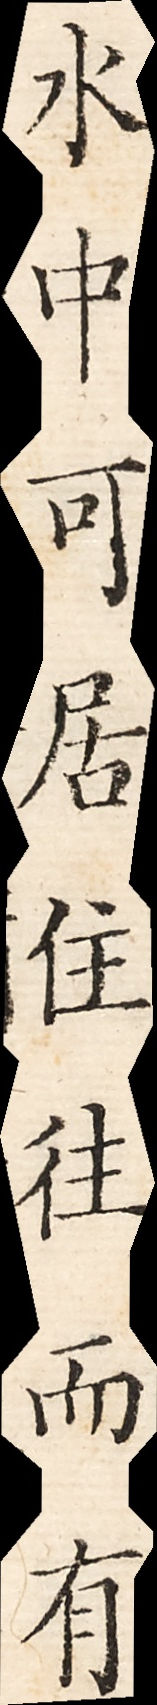水中可居往往而有
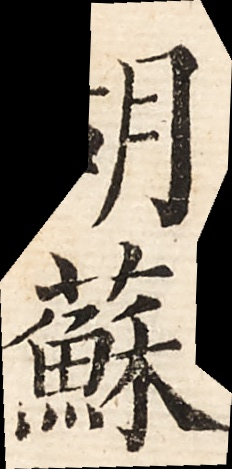胡蘇
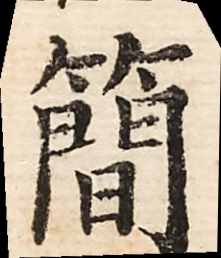簡
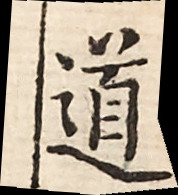道
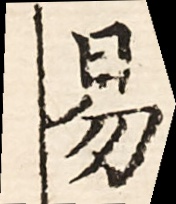易
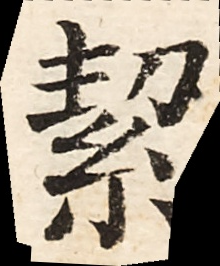絜
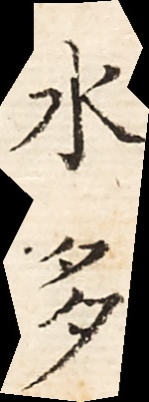約絜
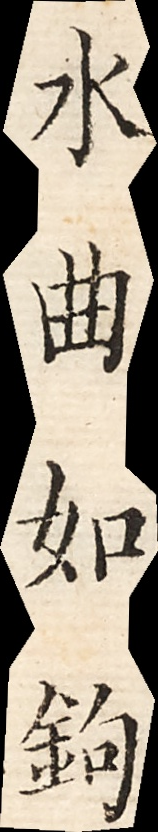水曲如鉤
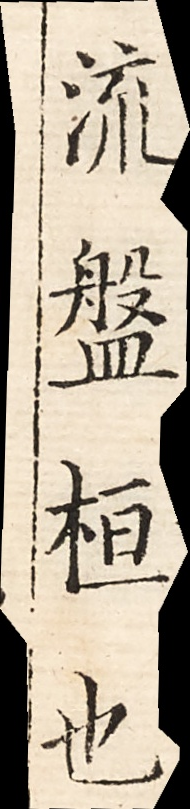流盤桓也
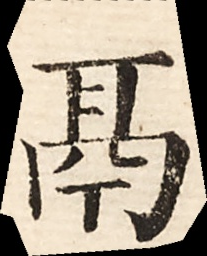鬲
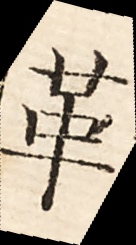革
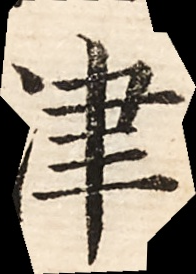津
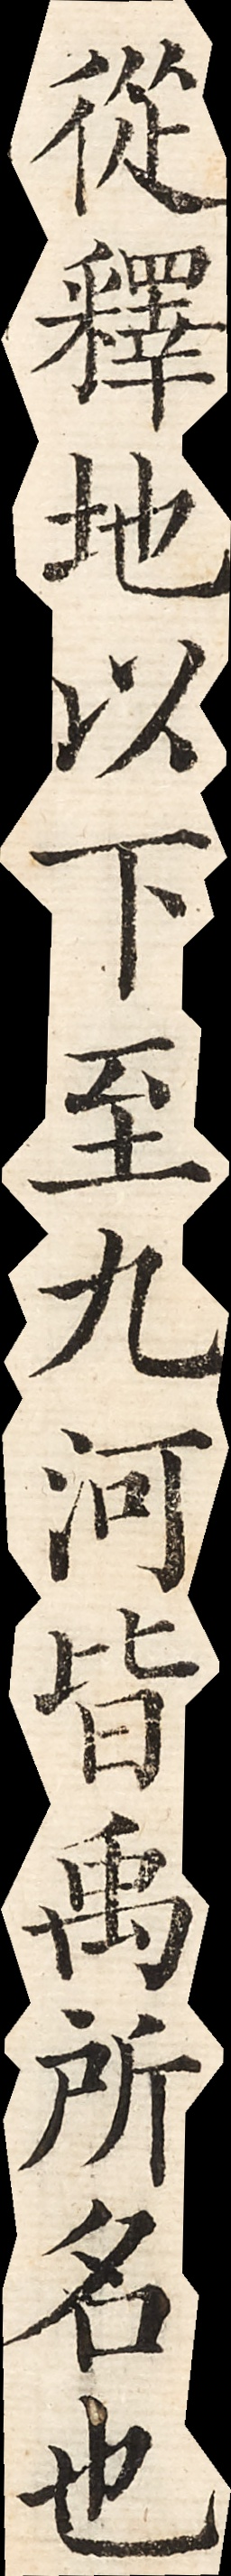從釋地已下至九河皆禹所名也
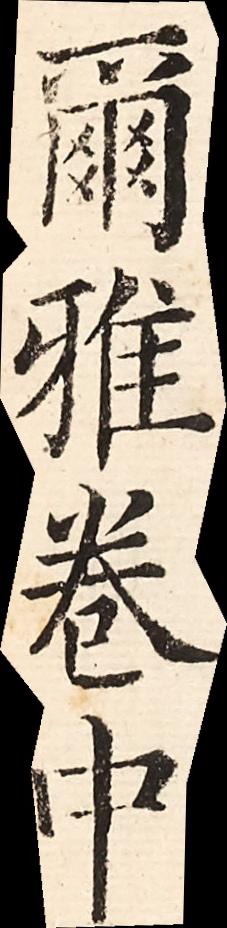爾雅卷中
